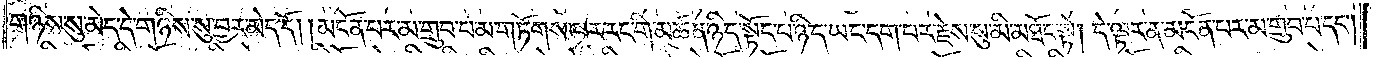གཉིས་སུ་མེད་དེ་གཉིས་སུ་བྱར་མེད་དོ། །མངོན་པར་མ་གྲུབ་པ་མ་གཏོགས་པར་རང་གི་མཚན་ཉིད་སྟོང་པ་ཉིད་ཡང་དག་པར་རྗེས་སུ་མི་མཐོང་སྟེ། དེ་ལྟར་ན་མངོན་པར་མ་གྲུབ་པ་དང༌།
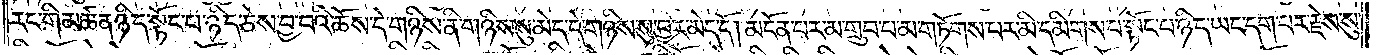རང་གི་མཚན་ཉིད་སྟོང་པ་ཉིད་ཅེས་བྱ་བའི་ཆོས་དེ་གཉིས་ནི་གཉིས་སུ་མེད་དེ་གཉིས་སུ་བྱར་མེད་དོ། །མངོན་པར་མ་གྲུབ་པ་མ་གཏོགས་པར་མི་དམིགས་པ་སྟོང་པ་ཉིད་ཡང་དག་པར་རྗེས་སུ་
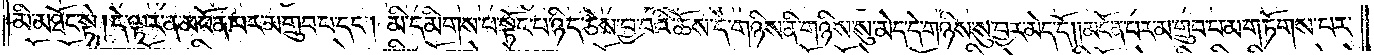མི་མཐོང་སྟེ། དེ་ལྟར་ན་མངོན་པར་མ་གྲུབ་པ་དང༌། མི་དམིགས་པ་སྟོང་པ་ཉིད་ཅེས་བྱ་བའི་ཆོས་དེ་གཉིས་ནི་གཉིས་སུ་མེད་དེ་གཉིས་སུ་བྱར་མེད་དོ། །མངོན་པར་མ་གྲུབ་པ་མ་གཏོགས་པར་
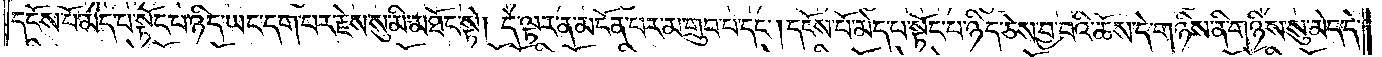དངོས་པོ་མེད་པ་སྟོང་པ་ཉིད་ཡང་དག་པར་རྗེས་སུ་མི་མཐོང་སྟེ། དེ་ལྟར་ན་མངོན་པར་མ་གྲུབ་པ་དང༌། དངོས་པོ་མེད་པ་སྟོང་པ་ཉིད་ཅེས་བྱ་བའི་ཆོས་དེ་གཉིས་ནི་གཉིས་སུ་མེད་དེ་
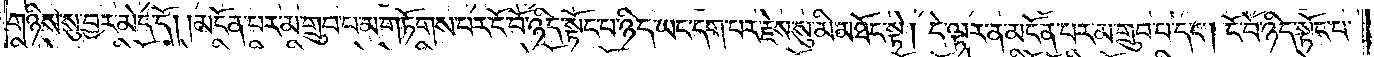གཉིས་སུ་བྱར་མེད་དོ། །མངོན་པར་མ་གྲུབ་པ་མ་གཏོགས་པར་ངོ་བོ་ཉིད་སྟོང་པ་ཉིད་ཡང་དག་པར་རྗེས་སུ་མི་མཐོང་སྟེ། དེ་ལྟར་ན་མངོན་པར་མ་གྲུབ་པ་དང༌། ངོ་བོ་ཉིད་སྟོང་པ་
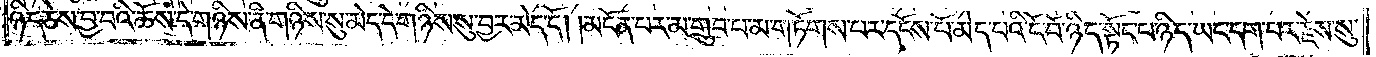ཉིད་ཅེས་བྱ་བའི་ཆོས་དེ་གཉིས་ནི་གཉིས་སུ་མེད་དེ་གཉིས་སུ་བྱར་མེད་དོ། །མངོན་པར་མ་གྲུབ་པ་མ་གཏོགས་པར་དངོས་པོ་མེད་པའི་ངོ་བོ་ཉིད་སྟོང་པ་ཉིད་ཡང་དག་པར་རྗེས་སུ་
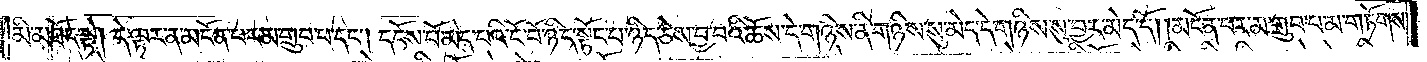མི་མཐོང་སྟེ། དེ་ལྟར་ན་མངོན་པར་མ་གྲུབ་པ་དང༌། དངོས་པོ་མེད་པའི་ངོ་བོ་ཉིད་སྟོང་པ་ཉིད་ཅེས་བྱ་བའི་ཆོས་དེ་གཉིས་ནི་གཉིས་སུ་མེད་དེ་གཉིས་སུ་བྱར་མེད་དོ། །མངོན་པར་མ་གྲུབ་པ་མ་གཏོགས་
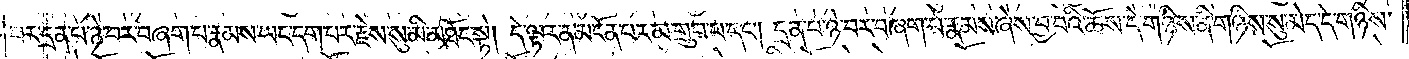པར་དྲན་པ་ཉེ་བར་བཞག་པ་རྣམས་ཡང་དག་པར་རྗེས་སུ་མི་མཐོང་སྟེ། དེ་ལྟར་ན་མངོན་པར་མ་གྲུབ་པ་དང༌། དྲན་པ་ཉེ་བར་བཞག་པ་རྣམས་ཞེས་བྱ་བའི་ཆོས་དེ་གཉིས་ནི་གཉིས་སུ་མེད་དེ་གཉིས་
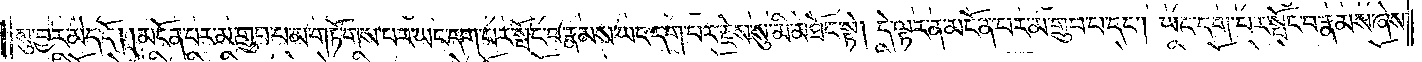སུ་བྱར་མེད་དོ། །མངོན་པར་མ་གྲུབ་པ་མ་གཏོགས་པར་ཡང་དག་པར་སྤོང་བ་རྣམས་ཡང་དག་པར་རྗེས་སུ་མི་མཐོང་སྟེ། དེ་ལྟར་ན་མངོན་པར་མ་གྲུབ་པ་དང༌། ཡང་དག་པར་སྤོང་བ་རྣམས་ཞེས་
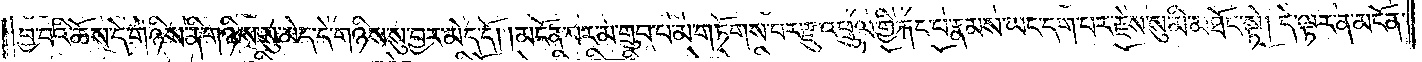བྱ་བའི་ཆོས་དེ་གཉིས་ནི་གཉིས་སུ་མེད་དེ་གཉིས་སུ་བྱར་མེད་དོ། །མངོན་པར་མ་གྲུབ་པ་མ་གཏོགས་པར་རྫུ་འཕྲུལ་གྱི་རྐང་པ་རྣམས་ཡང་དག་པར་རྗེས་སུ་མི་མཐོང་སྟེ། དེ་ལྟར་ན་མངོན་
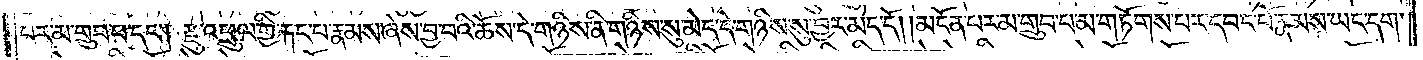པར་མ་གྲུབ་པ་དང༌། རྫུ་འཕྲུལ་གྱི་རྐང་པ་རྣམས་ཞེས་བྱ་བའི་ཆོས་དེ་གཉིས་ནི་གཉིས་སུ་མེད་དེ་གཉིས་སུ་བྱར་མེད་དོ། །མངོན་པར་མ་གྲུབ་པ་མ་གཏོགས་པར་དབང་པོ་རྣམས་ཡང་དག་
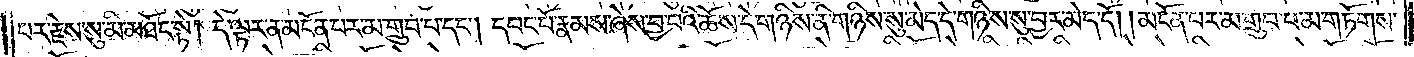པར་རྗེས་སུ་མི་མཐོང་སྟེ། དེ་ལྟར་ན་མངོན་པར་མ་གྲུབ་པ་དང༌། དབང་པོ་རྣམས་ཞེས་བྱ་བའི་ཆོས་དེ་གཉིས་ནི་གཉིས་སུ་མེད་དེ་གཉིས་སུ་བྱར་མེད་དོ། །མངོན་པར་མ་གྲུབ་པ་མ་གཏོགས་
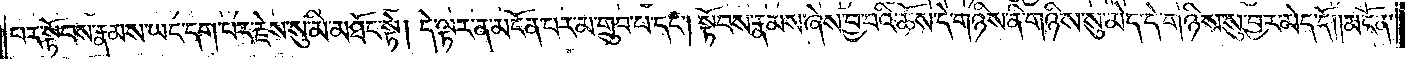པར་སྟོབས་རྣམས་ཡང་དག་པར་རྗེས་སུ་མི་མཐོང་སྟེ། དེ་ལྟར་ན་མངོན་པར་མ་གྲུབ་པ་དང༌། སྟོབས་རྣམས་ཞེས་བྱ་བའི་ཆོས་དེ་གཉིས་ནི་གཉིས་སུ་མེད་དེ་གཉིས་སུ་བྱར་མེད་དོ། །མངོན་
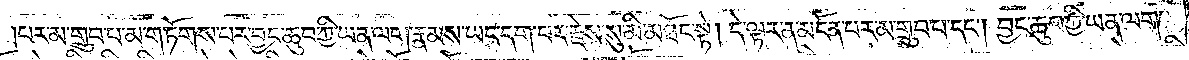པར་མ་གྲུབ་པ་མ་གཏོགས་པར་བྱང་ཆུབ་ཀྱི་ཡན་ལག་རྣམས་ཡང་དག་པར་རྗེས་སུ་མི་མཐོང་སྟེ། དེ་ལྟར་ན་མངོན་པར་མ་གྲུབ་པ་དང༌། བྱང་ཆུབ་ཀྱི་ཡན་ལག་
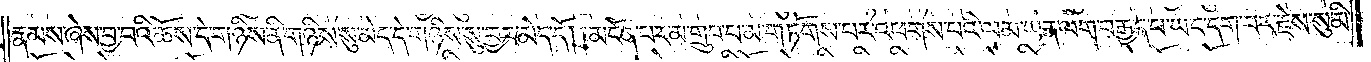རྣམས་ཞེས་བྱ་བའི་ཆོས་དེ་གཉིས་ནི་གཉིས་སུ་མེད་དེ་གཉིས་སུ་བྱར་མེད་དོ། །མངོན་པར་མ་གྲུབ་པ་མ་གཏོགས་པར་འཕགས་པའི་ལམ་ཡན་ལག་བརྒྱད་པ་ཡང་དག་པར་རྗེས་སུ་མི་
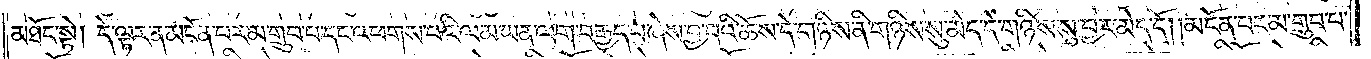མཐོང་སྟེ། དེ་ལྟར་ན་མངོན་པར་མ་གྲུབ་པ་དང་འཕགས་པའི་ལམ་ཡན་ལག་བརྒྱད་པ་ཞེས་བྱ་བའི་ཆོས་དེ་གཉིས་ནི་གཉིས་སུ་མེད་དེ་གཉིས་སུ་བྱར་མེད་དོ། །མངོན་པར་མ་གྲུབ་པ་
